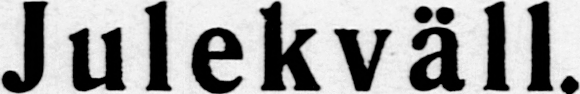Julekväll.
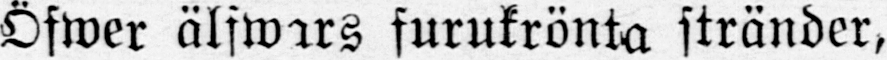Öfwer älfwars furukrönta stränder,
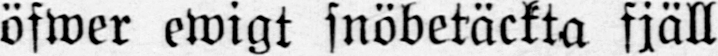öfwer ewigt snöbetäckta fjäll
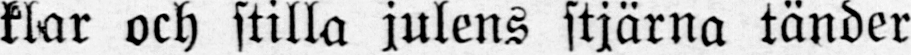klar och stilla julens stjärna tänder
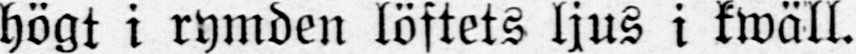högt i rymden löftets ljus i kwäll.
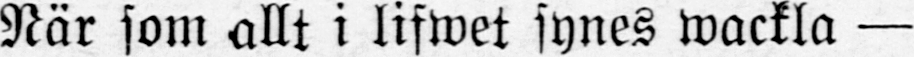När som allt i lifwet synes wackla —
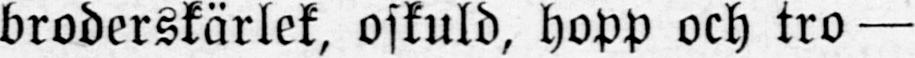broderskärlek, oskuld, hopp och tro —
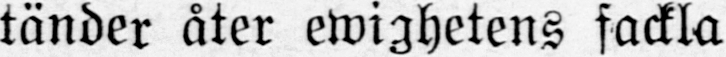tänder åter ewighetens fackla
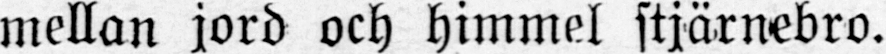mellan jord och himmel stjärnebro.
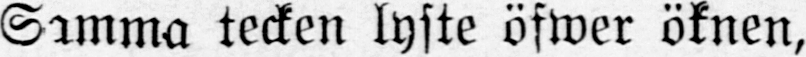Samma tecken lyste öfwer öknen,
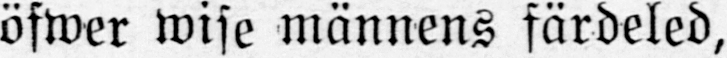öfwer wise männens färdeled,
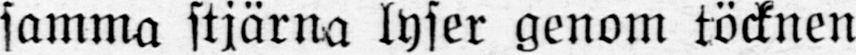samma stjärna lyser genom töcknen
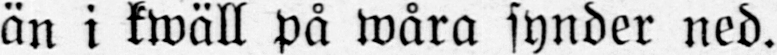än i kwäll på wåra synder ned.
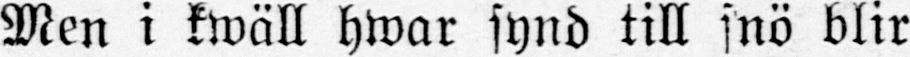Men i kwäll hwar synd till snö blir
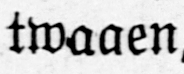twagen,
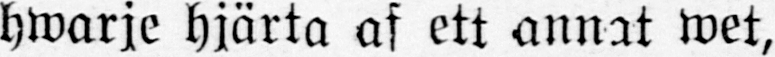hwarje hjärta af ett annat wet,
